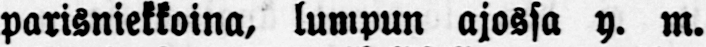parisniekkoina, lumpun ajossa y. m.
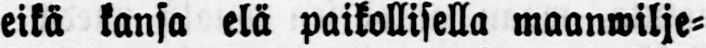eikä kansa elä paikallisella maanwilje-
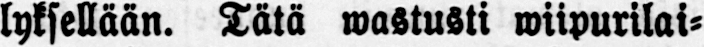lyksellään. Tätä wastusti wiipurilai-
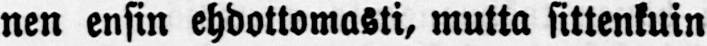nen ensin ehdottomasti, mutta sittenkuin
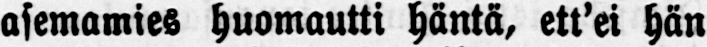asemamies huomautti häntä, ett'ei hän
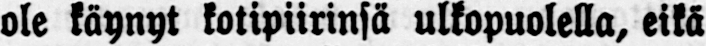ole käynyt kotipiirinsä ulkopuolella, eikä
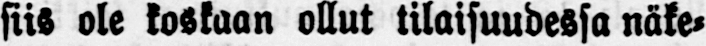siis ole koskaan ollut tilaisuudessa näke-
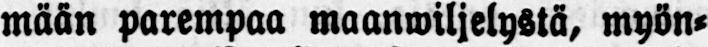mään parempaa maanwiljelystä, myön-
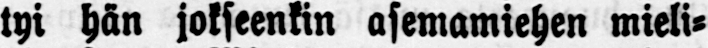tyi hän jokseenkin asemamiehen mieli-
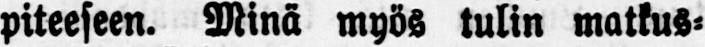piteeseen. Minä myös tulin matkus-
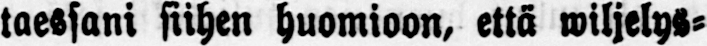taessani siihen huomioon, että wiljelys-
